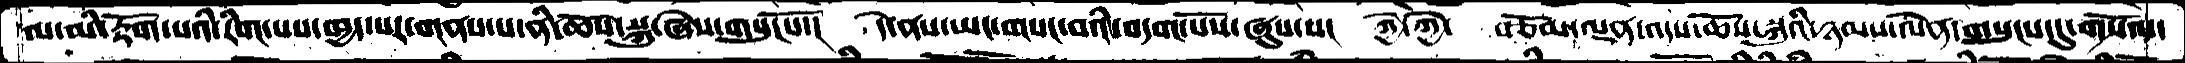ལ་མི་རྟོག་པའི་རིག་པས་ཁྱད་པར་གནས་པ་ནི་ཆོས་སྐུ་ཞེས་གསུངསོ་།  དེ་ནས་ཡང་གསང་བའི་བདག་པོས་ཞུས་པ།  ཀྱེ་ཀྱེ་  བཅོམ་ལྡན་འདས་ཆོས་སྐུའི་ཉམས་ལེན་གསུངས་དུ་གསོལ་
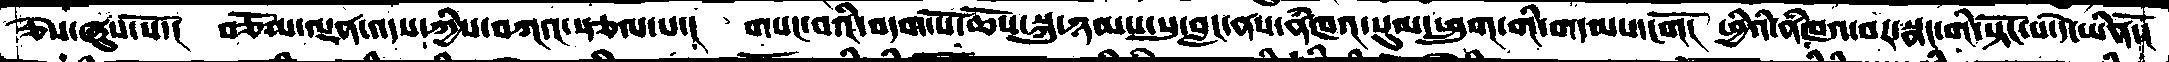ཅེས་ཞུས་སོ་།  བཅོམ་ལྡན་འདས་ཀྱིས་བཀའ་སྩལ་པ་།  གསང་བའི་བདག་པོ་ཆོས་སྐུ་ཉམས་སུ་བླང་ནས་ནཾཁའ་སུམ་ཕྲུག་གི་གདམས་ངགོ།  ཕྱིའི་ནཾཁའ་བར་སྣང་གི་སྟོང་པ་དེེ་ཡིནོ་།
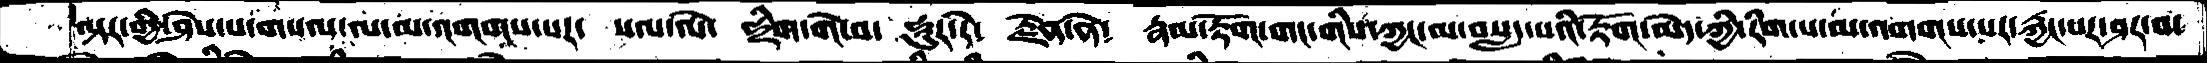ལྟར་གྱི་ཤེས་པ་གསལ་ལ་མ་འགགས་པར་  སལ་ལེ་  ཧྲིག་གེ་བ་  ཧཱུར་རེ༴  རྗེན་ནེ༴  རྣམ་རྟོག་གང་གིས་ཀྱང་མ་བསླད་པའི་རྟོག་མེད་ཀྱི་རིག་པ་མ་འགགས་པར་རྐྱང་པར་ཤར་བ་
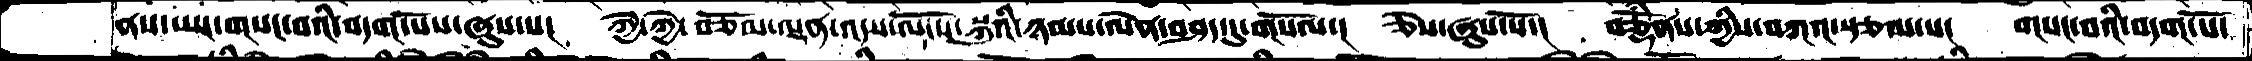ནས་ཡང་གསང་བའི་བདག་པོས་ཞུས་པ།   ཀྱེ་ཀྱེ་བཅོམ་ལྡན་འདས་ལོངས་སྐུའི་ཉམས་ལེན་བཤད་དུ་གསོལ་།   ཅེས་ཞུས་སོ་།   བཅྟོཾནས་ཀྱིས་བཀའ་སྩལ་པ།   གསང་བའི་བདག་པོ་
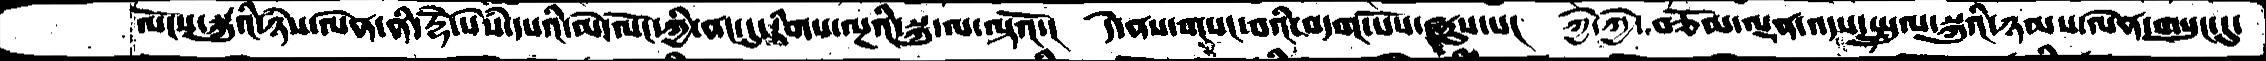ལོངས་སྐུའི་ཉཾས་ལེན་ནི་རྡོེ་སེསཾ་དཔའི་མེ་ལོང་ཀྱི་ནང་དུ་རིགས་ལྔའི་སྐུ་ལ་ལྟའོ་།    དེ་ནས་གསང་བའི་བདག་པོས་ཞུས་པ།    ཀྱེ་ཀྱེ་བཅོམ་ལྡན་འདས་སྤྲུལ་སྐུའི་ཉམས་ལེན་གསུང་དུ་
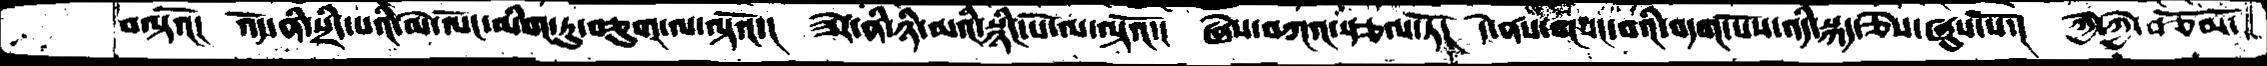བལྟའོ།  འོད་ནི་སྲིད་པའི་མེ་ལོང་མིག་ཏུ་བཅུག་ལ་ལྟའོ་།  ཟེེར་ནི་ཉི་མའི་སྙིང་པོ་ལ་ལྟའོ་།  ཞེས་བཀའ་སྩལ་ཏོ།  དེ་ནས་གསང་བའི་བདག་པོས་འདི་སྐད་ཅེས་ཞུས་སོ་།  ཀྱེ་ཀྱེ་བཅོམ་
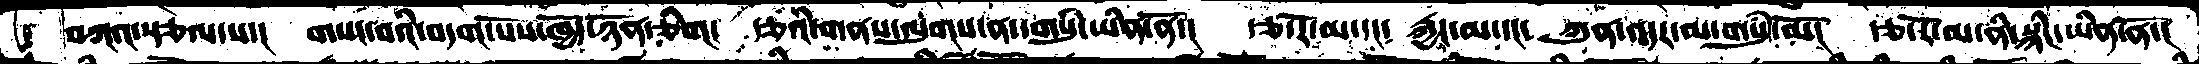བཀའ་སྩལ་པ་།  གསང་བའི་བདག་པོས་ཁྱོད་ཉོན་ཅིག། རྩའི་གནས་ལུགས་ན་གསུཾ་ཡིན་ནོ་། རྩ་རོ་མ་དང༴ རྐྱང་མ་དང༴ ཀུན་འདར་མ་གསུཾ་མོ། རྩ་རོ་མ་ནི་སྙིང་ཡིན་ནོ་།
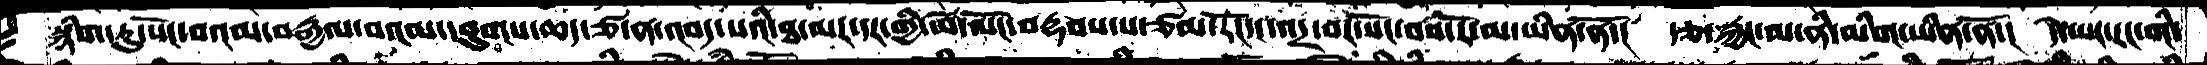སྙིག་ཏུ་སོང་བའམ་བརྒྱལ་བའམ་དབུགས་ཆད་ཙ་ན་འབད་པའི་ཐ་མར་དར་གྱི་མེ་ལོང་བརྡབས་པ་ཙམ་རོང་ང་འདྲ་བར་སོང་བས་རོ་མ་ཡིན་ནོ་།  རྩ་རྐྱང་མ་ནི་མིག་ཡིན་ནོ་། དེ་ཡང་རང་གི་
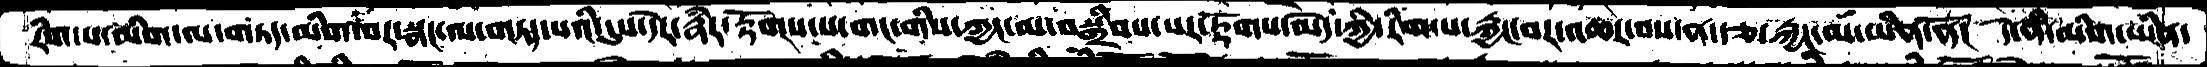རིག་པ་མིག་ལ་གཏད་མིག་བར་སྣང་ལ་གཏད་པའི་དུས་དེར་རྣཾར་རྟོགས་པ་གང་གིས་ཀྱང་མ་བསྒྲིབས་པར་རྟོགས་མེད་ཀྱི་རིག་པ་རྐྱང་པར་འཆར་བས་ན་རྩ་རྐྱང་མ་ཡིན་ནོ།  དེ་ན་མིག་ཡིན་
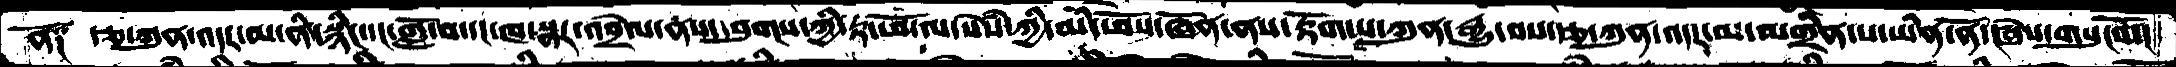ནོ༑  རྩ་ཀུན་འདར་མ་ནི་སྙིང་དང་གློ་བ་དང་ཁ་སྣར་འབྲེལ་ནས་དབུགས་ཀྱི་རྟ་ཕོ་ལ་སེཾས་ཀྱི་མི་ཕོས་ཞོན་ནས་རྟོག་པ་ཀུན་རྒྱུ་བས་རྩ་ཀུན་འདར་མ་མགྲིན་པ་ཡིན་ནོ་་།  ཞེས་གསུངསོ་།
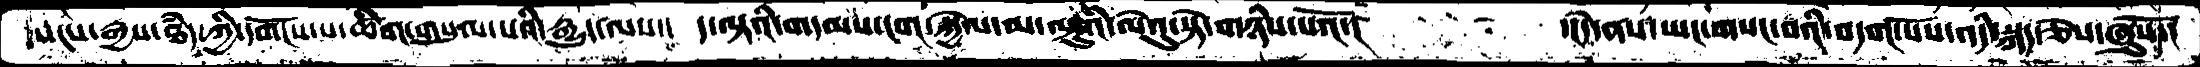སངས་རྒྱས་ཐཾད་ཀྱི་དགོངས་པ་ཚིག་གསུམ་པའི་རྒྱུད་ལས་།  ད་ལྟའི་གདམས་ངག་སྐྱེལ་མ་ལྟུའི་ལེའུ་སྟེ་གཉིས་པའོ་།         ་།དེ་ནས་ཡང་གསང་བའི་བདག་པོས་འདི་སྐད་ཅེས་ཞུསོ་།
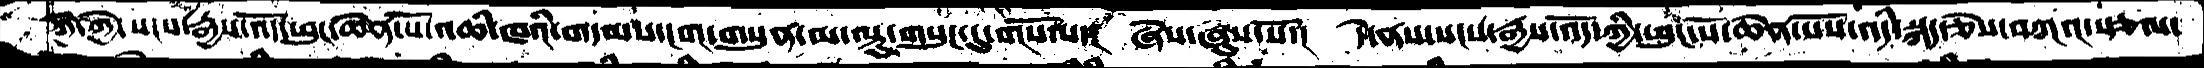ཀྱེ་ཀྱེ་སངས་རྒྱས་འོད་ཕུང་ཆེན་པོ་འཆི་ཁའི་གདམས་ངག་གསུན་མ་ལྟུ་གསུང་དུ་གསོལ་།  ཞེས་ཞུས་སོ་།  དེ་ནས་སངས་རྒྱས་འོད་ཀྱི་ཕུང་པོ་ཆེན་པོས་འདི་སྐད་ཅེས་བཀའ་སྩལ་
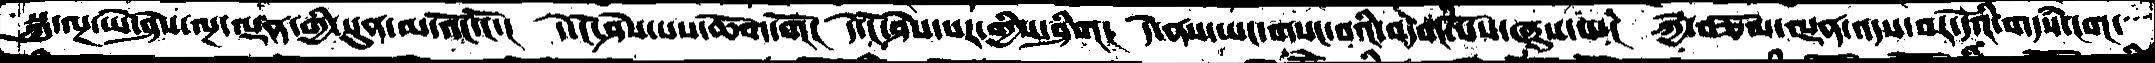སྐུ་ལྔ་ཡེ་ཤེས་ལྔ་ལྡན་གྱི་སུན་མ་འོང་ངོ་།  དེ་ངོ་ཤེས་པས་ཆོག་གོ།  དེ་ངོ་ཤེས་པར་གྱིས་ཤིག།  དེ་ནས་ཡང་གསང་བའི་བདག་པོས་ཞུས་པ།  ཀྱེ་བཅོམ་ལྡན་འདས་བར་དོའི་གདཾས་ངག་
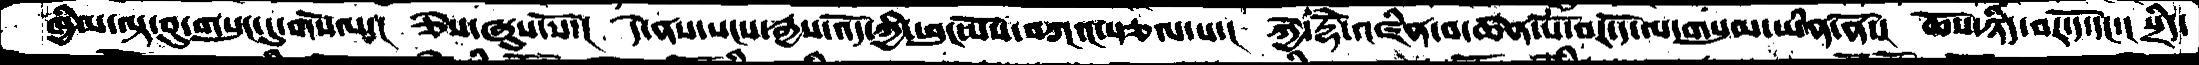ཁྱིམ་ལྟ་བུ་གསུང་དུ་གསོལ།  ཅེས་ཞུས་སོ་།  དེ་ནས་སངས་རྒྱས་འོད་ཀྱི་ཕུང་པོ་བཀའ་སྩལ་པ་།  ཀྱེ་རྡོེ་འཛིན་བ་ཆེན་པོ་བར་དོ་ལ་གསུམ་ཡིན་ནོ་།  ཆོས་ཉིད་བར་དོ་དང་།  སྲིད་
